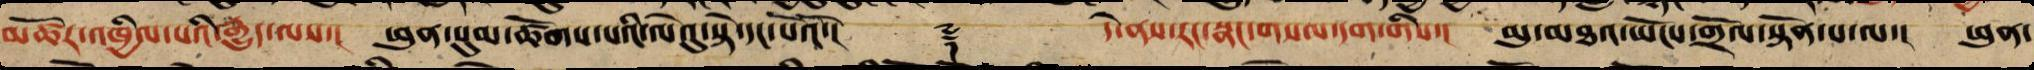མཚོར་འཁྱིལ་པའི་རྒྱུད་ལས་། ཕུན་སུམ་ཚོགས་པའི་ལེའུ་སྟེ་དང་པོའོ་།། ༈ དེ་ནས་རང་སྣང་གསལ་དག་གིས་། མུ་མཐའ་ཡོངས་གྲོལ་སྟོན་པ་ལ་། ཕུན་
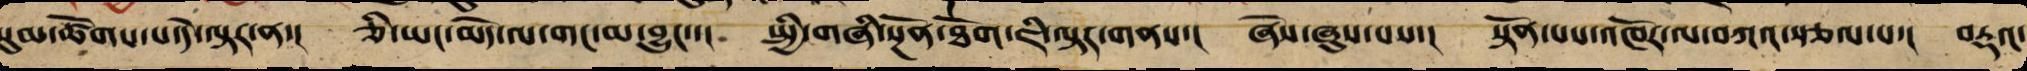སུམ་ཚོགས་པ་དེ་ལྟར་ན་། ཅི་ཡང་མེད་ལས་གང་མ་བྱུང་་། སྤྱི་གཞི་སྔོན་ཐོག་ཇི་ལྟར་གནས་། ཞེས་ཞུས་པས་། སྟོན་པས་འཁོར་ལ་བཀའ་སྩལ་པ་། བརྡའ་
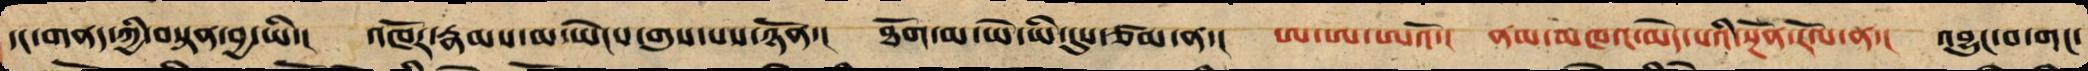དང་གནད་ཀྱི་བསྟན་བྱ་ཡི་། འཁོར་རྣམས་མ་ཡེངས་གུས་པས་ཉོན་། ཐོག་མ་ཡེ་ཡི་དུས་ཙམ་ན་། ཨ་ཨ་ཨའོ་། ནམ་མཁའ་མེད་པའི་སྔོན་རོལ་ན་། འབྱུང་བ་གང་
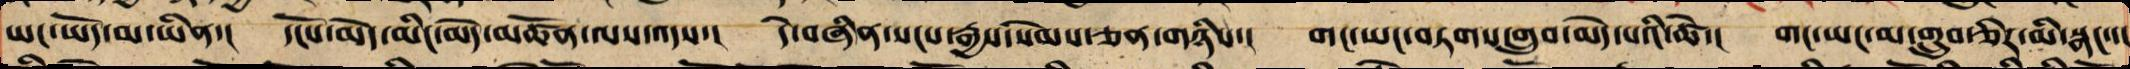ཡང་ཡོད་མ་ཡིན་། དངོས་མེད་མིང་མེད་མཚོན་ལས་འདས་། དེ་བཞིན་སངས་རྒྱས་སེམས་ཅན་གཉིས་། གང་ཡང་བཏགས་གྲུབ་མེད་པའི་ཚེ་། གང་ཡང་མ་གྲུབ་ཅིར་མི་སྣང་་།
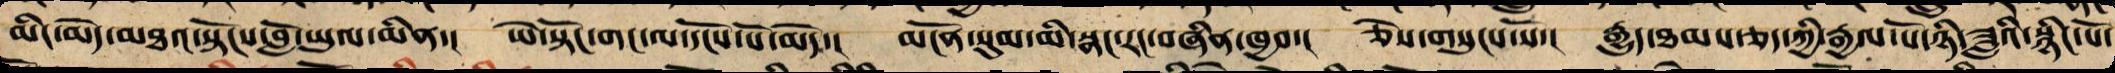མིང་མེད་མཐའ་སྟོངས་བློ་ཡུལ་མིན་། ཡེ་སྟོང་གང་ལ་དངོས་པོ་མེད་། མངོན་སུམ་མི་སྣང་རང་བཞིན་ཁྱབ་། ཅེས་གསུངས་སོ་། རྒྱུད་ཐམས་ཅད་ཀྱི་རྒྱལ་པོ་ཉི་ཟླའི་སྙིང་པོ་
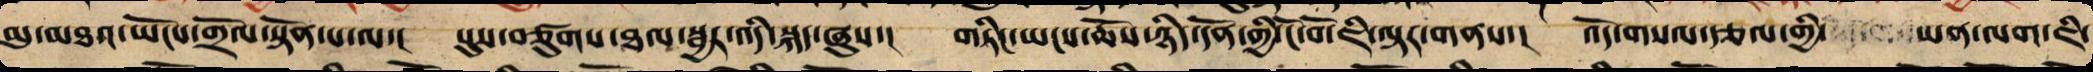མུ་མཐའ་ཡོངས་གྲོལ་སྟོན་པ་ལ་། པུས་བཙུགས་ཐལ་སྦྱར་འདི་སྐད་ཞུས་། གཏིང་ཡངས་ཆོས་ཉིད་དོན་གྱི་ངོ་བོ་ཇི་ལྟར་གནས་། འོད་གསལ་རྩལ་གྱི་ ཡན་ལག་ཇི་
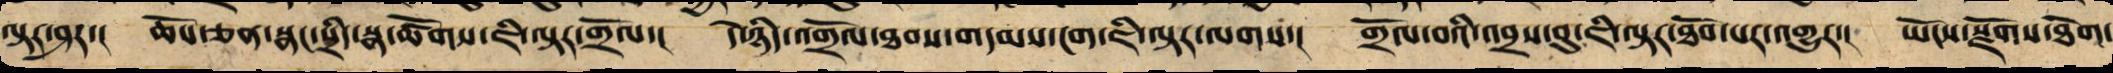ལྟར་ཤར་། ཆོས་ཅན་སྣང་སྲིད་སྣ་ཚོགས་ཇི་ལྟར་གྲོལ་། དེ་ཉིད་འགྲོལ་ཐབས་གདམས་ངག་ཇི་ལྟར་ལགས་། གྲོལ་བའི་འབྲས་བུ་ཇི་ལྟར་ཐོབ་པར་འགྱུར་། ཡོངས་སྫོགས་ཐེག་
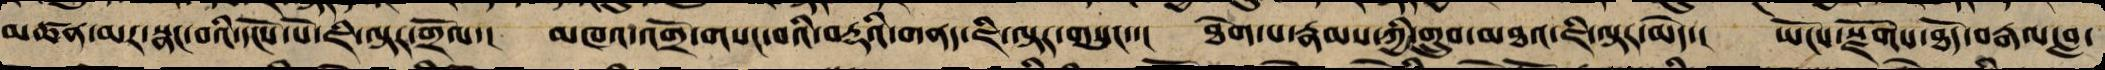མཚན་མར་སྣང་བའི་དངོས་པོ་ཇི་ལྟར་གྲོལ་། མཁའ་འགྲོ་གསང་བའི་བརྡའི་གནད་ཇི་ལྟར་གསུང་་། ཐེག་པ་རྣམས་ཀྱི་གྲུབ་མཐའ་ཇི་ལྟར་མེད་། ཡོངས་སྫོགས་ཐོད་བརྒལ་བླ་
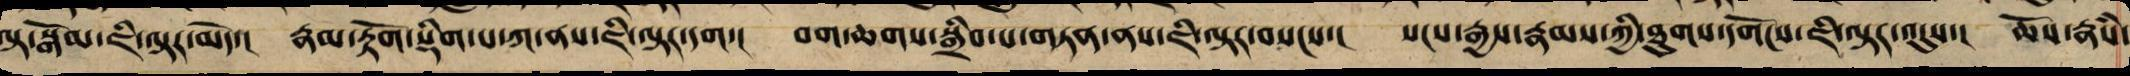ལྟ་སྒོམ་ཇི་ལྟར་མེད་། རྣམ་རྟོག་སྡིག་པ་ཀ་ནས་ཇི་ལྟར་དག་། བག་ཆགས་སྒྲིབ་པ་གཏན་ནས་ཇི་ལྟར་བསངས་། སངས་རྒྱས་རྣམས་ཀྱི་ཐུགས་དགོངས་ཇི་ལྟར་འདུས་། ཆོས་རྣཾས་
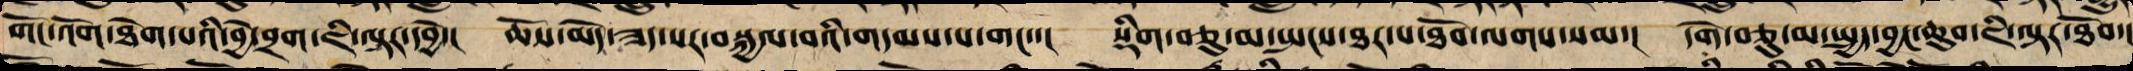གོང་འོག་ཐེག་པའི་བྱེ་བྲག་ཇི་ལྟར་དབྱེ་། ཆོས་མེད་ཟད་སར་བསྐྱལ་བའི་གདམས་པ་གང་་། སྡིག་བཅུ་མ་སྤངས་ཐར་པ་ཐོབ་ལགས་སམ་། དགེ་བཅུ་མ་སྤྱད་བྱང་ཆུབ་ཇི་ལྟར་ཐོབ་།
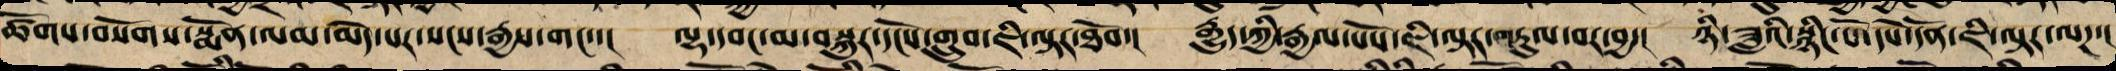ཚོགས་བསག་སྨོན་ལམ་མེད་པར་སངས་རྒྱས་གང་་། ལྷ་དབང་མ་བསྐུར་དངོས་གྲུབ་ཇི་ལྟར་ཐོབ་། རྒྱུད་ཀྱི་རྒྱལ་པོས་ཇི་ལྟར་གཏུལ་བར་བྱ་། ཉི་ཟླའི་སྙིང་པོ་དཔེ་དོན་ཇི་ལྟར་ལཌ་།
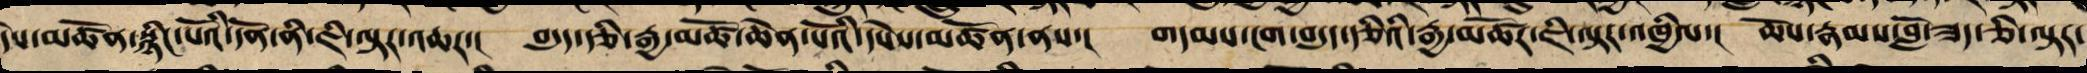དེས་མཚོན་སྙིང་པོའི་དོན་ནི་ཇི་ལྟར་འཆར་། བདུད་རྩི་རྒྱ་མཚོ་ཆེན་པོའི་དཔེས་མཚོན་ནས་། གདམས་ངག་བདུད་རྩིའི་རྒྱ་མཚོར་ཇི་ལྟར་འཁྱིལ་། ཆོས་རྣམས་བློ་ཟད་ཅི་ལྟར་
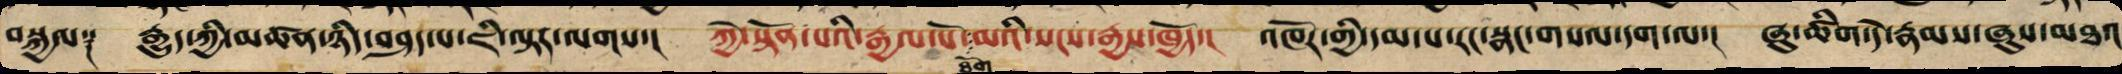བསྐྱལ༈   རྒྱུད་ཀྱི་མཚན་ཉིད་བཤད་པ་ཇི་ལྟར་ལགས་།    ཀྱེ་སྟོན་པའི་རྒྱལ་པོ་ཐོག་མའི་སངས་རྒྱས་ཁྱོད་།   འཁོར་གྱི་དམ་པ་རང་སྣང་གསལ་དག་ལ།   ཞུ་ཚིག་དེ་རྣམས་ཞུས་མཐའ
